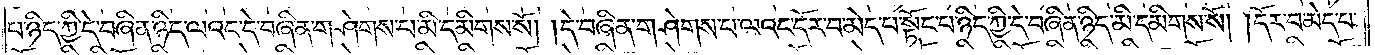པ་ཉིད་ཀྱི་དེ་བཞིན་ཉིད་ལའང་དེ་བཞིན་གཤེགས་པ་མི་དམིགས་སོ། །དེ་བཞིན་གཤེགས་པ་ལའང་དོར་བ་མེད་པ་སྟོང་པ་ཉིད་ཀྱི་དེ་བཞིན་ཉིད་མི་དམིགས་སོ། །དོར་བ་མེད་པ་
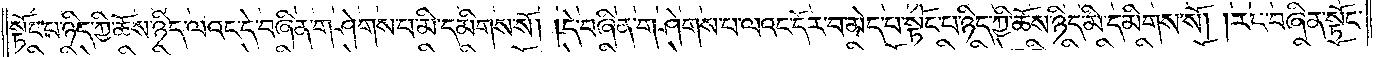སྟོང་པ་ཉིད་ཀྱི་ཆོས་ཉིད་ལའང་དེ་བཞིན་གཤེགས་པ་མི་དམིགས་སོ། །དེ་བཞིན་གཤེགས་པ་ལའང་དོར་བ་མེད་པ་སྟོང་པ་ཉིད་ཀྱི་ཆོས་ཉིད་མི་དམིགས་སོ། །རང་བཞིན་སྟོང་
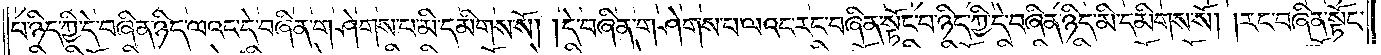པ་ཉིད་ཀྱི་དེ་བཞིན་ཉིད་ལའང་དེ་བཞིན་གཤེགས་པ་མི་དམིགས་སོ། །དེ་བཞིན་གཤེགས་པ་ལའང་རང་བཞིན་སྟོང་པ་ཉིད་ཀྱི་དེ་བཞིན་ཉིད་མི་དམིགས་སོ། །རང་བཞིན་སྟོང་
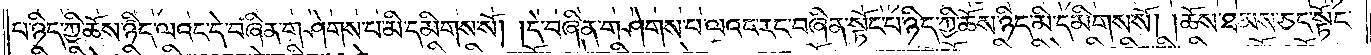པ་ཉིད་ཀྱི་ཆོས་ཉིད་ལའང་དེ་བཞིན་གཤེགས་པ་མི་དམིགས་སོ། །དེ་བཞིན་གཤེགས་པ་ལའང་རང་བཞིན་སྟོང་པ་ཉིད་ཀྱི་ཆོས་ཉིད་མི་དམིགས་སོ། །ཆོས་ཐམས་ཅད་སྟོང་
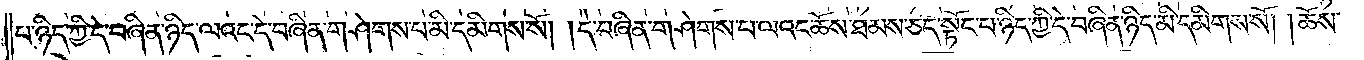པ་ཉིད་ཀྱི་དེ་བཞིན་ཉིད་ལའང་དེ་བཞིན་གཤེགས་པ་མི་དམིགས་སོ། །དེ་བཞིན་གཤེགས་པ་ལའང་ཆོས་ཐམས་ཅད་སྟོང་པ་ཉིད་ཀྱི་དེ་བཞིན་ཉིད་མི་དམིགས་སོ། །ཆོས་
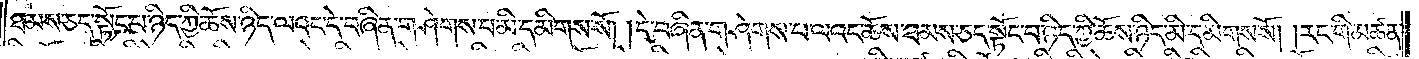ཐམས་ཅད་སྟོང་པ་ཉིད་ཀྱི་ཆོས་ཉིད་ལའང་དེ་བཞིན་གཤེགས་པ་མི་དམིགས་སོ། །དེ་བཞིན་གཤེགས་པ་ལའང་ཆོས་ཐམས་ཅད་སྟོང་པ་ཉིད་ཀྱི་ཆོས་ཉིད་མི་དམིགས་སོ། །རང་གི་མཚན་
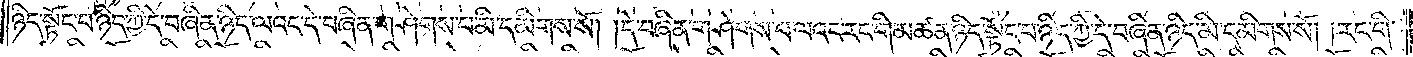ཉིད་སྟོང་པ་ཉིད་ཀྱི་དེ་བཞིན་ཉིད་ལའང་དེ་བཞིན་གཤེགས་པ་མི་དམིགས་སོ། །དེ་བཞིན་གཤེགས་པ་ལའང་རང་གི་མཚན་ཉིད་སྟོང་པ་ཉིད་ཀྱི་དེ་བཞིན་ཉིད་མི་དམིགས་སོ། །རང་གི་
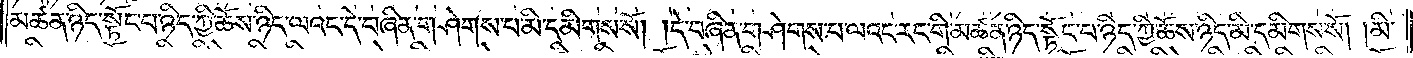མཚན་ཉིད་སྟོང་པ་ཉིད་ཀྱི་ཆོས་ཉིད་ལའང་དེ་བཞིན་གཤེགས་པ་མི་དམིགས་སོ། །དེ་བཞིན་གཤེགས་པ་ལའང་རང་གི་མཚན་ཉིད་སྟོང་པ་ཉིད་ཀྱི་ཆོས་ཉིད་མི་དམིགས་སོ། །མི་
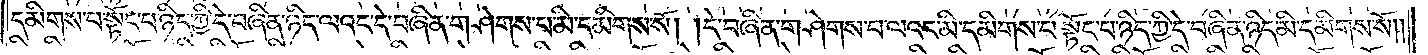དམིགས་པ་སྟོང་པ་ཉིད་ཀྱི་དེ་བཞིན་ཉིད་ལའང་དེ་བཞིན་གཤེགས་པ་མི་དམིགས་སོ། །དེ་བཞིན་གཤེགས་པ་ལའང་མི་དམིགས་པ་སྟོང་པ་ཉིད་ཀྱི་དེ་བཞིན་ཉིད་མི་དམིགས་སོ༎
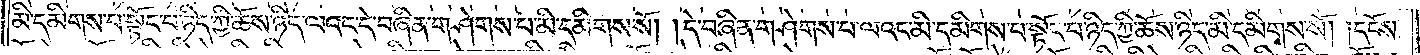མི་དམིགས་པ་སྟོང་པ་ཉིད་ཀྱི་ཆོས་ཉིད་ལའང་དེ་བཞིན་གཤེགས་པ་མི་དམིགས་སོ། །དེ་བཞིན་གཤེགས་པ་ལའང་མི་དམིགས་པ་སྟོང་པ་ཉིད་ཀྱི་ཆོས་ཉིད་མི་དམིགས་སོ། །དངོས་
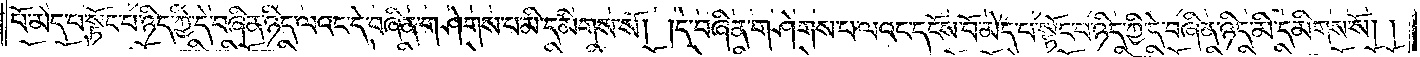པོ་མེད་པ་སྟོང་པ་ཉིད་ཀྱི་དེ་བཞིན་ཉིད་ལའང་དེ་བཞིན་གཤེགས་པ་མི་དམིགས་སོ། །དེ་བཞིན་གཤེགས་པ་ལའང་དངོས་པོ་མེད་པ་སྟོང་པ་ཉིད་ཀྱི་དེ་བཞིན་ཉིད་མི་དམིགས་སོ། །
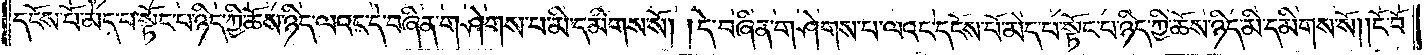དངོས་པོ་མེད་པ་སྟོང་པ་ཉིད་ཀྱི་ཆོས་ཉིད་ལའང་དེ་བཞིན་གཤེགས་པ་མི་དམིགས་སོ། །དེ་བཞིན་གཤེགས་པ་ལའང་དངོས་པོ་མེད་པ་སྟོང་པ་ཉིད་ཀྱི་ཆོས་ཉིད་མི་དམིགས་སོ། །ངོ་བོ་
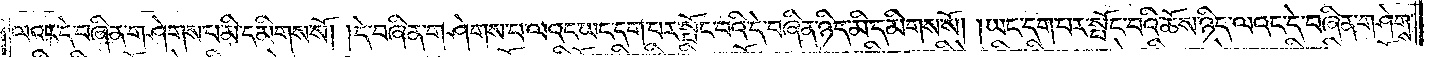ལའང་དེ་བཞིན་གཤེགས་པ་མི་དམིགས་སོ། །དེ་བཞིན་གཤེགས་པ་ལའང་ཡང་དག་པར་སྤོང་བའི་དེ་བཞིན་ཉིད་མི་དམིགས་སོ། །ཡང་དག་པར་སྤོང་བའི་ཆོས་ཉིད་ལའང་དེ་བཞིན་གཤེགས་
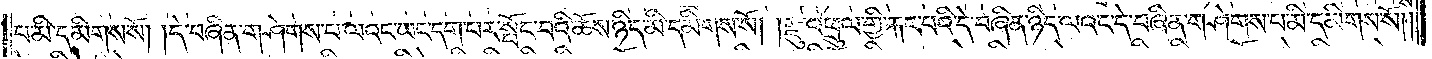པ་མི་དམིགས་སོ། །དེ་བཞིན་གཤེགས་པ་ལའང་ཡང་དག་པར་སྤོང་བའི་ཆོས་ཉིད་མི་དམིགས་སོ། །རྫུ་འཕྲུལ་གྱི་རྐང་པའི་དེ་བཞིན་ཉིད་ལའང་དེ་བཞིན་གཤེགས་པ་མི་དམིགས་སོ༎
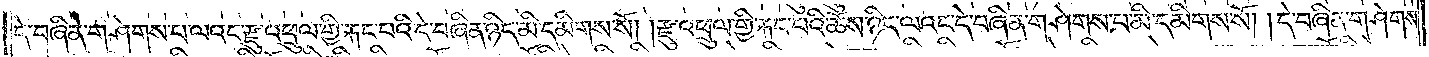དེ་བཞིན་གཤེགས་པ་ལའང་རྫུ་འཕྲུལ་གྱི་རྐང་པའི་དེ་བཞིན་ཉིད་མི་དམིགས་སོ། །རྫུ་འཕྲུལ་གྱི་རྐང་པའི་ཆོས་ཉིད་ལའང་དེ་བཞིན་གཤེགས་པ་མི་དམིགས་སོ། །དེ་བཞིན་གཤེགས་
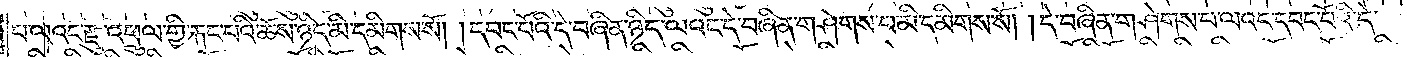པ་ལའང་རྫུ་འཕྲུལ་གྱི་རྐང་པའི་ཆོས་ཉིད་མི་དམིགས་སོ། །དབང་པོའི་དེ་བཞིན་ཉིད་ལའང་དེ་བཞིན་གཤེགས་པ་མི་དམིགས་སོ། །དེ་བཞིན་གཤེགས་པ་ལའང་དབང་པོའི་དེ་
